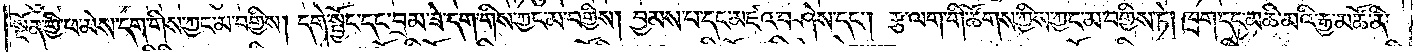སྔོན་གྱི་ཕ་མེས་དག་གིས་ཀྱང་མ་བགྱིས། དགེ་སྦྱོང་དང་བྲམ་ཟེ་དག་གིས་ཀྱང་མ་བགྱིས། བྱམས་པ་དང་མཛའ་བཤེས་དང༌། རྩ་ལག་གི་ཚོགས་ཀྱིས་ཀྱང་མ་བགྱིས་ཏེ། ཁྲག་དང་མཆི་མའི་རྒྱ་མཚོ་ནི་
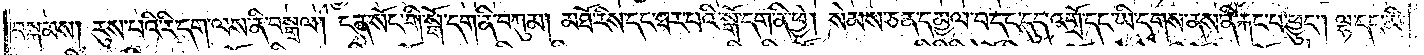བསྐམས། རུས་པའི་རི་དག་ལས་ནི་བསྒྲལ། ངན་སོང་གི་སྒོ་དག་ནི་བཀུམ། མཐོ་རིས་དང་ཐར་པའི་སྒོ་དག་ནི་ཕྱེ། སེམས་ཅན་དམྱལ་བ་དང་དུད་འགྲོ་དང་ཡི་དྭགས་ནས་ནི་རྐང་པ་ཕྱུང༌། ལྷ་དང་མི་
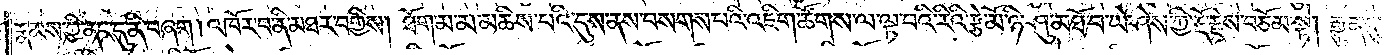རྣམས་ཀྱི་ནང་དུ་ནི་བཞག །འཁོར་བ་ནི་མཐར་བགྱིས། ཐོག་མ་མ་མཆིས་པའི་དུས་ནས་བསགས་པའི་འཇིག་ཚོགས་ལ་ལྟ་བའི་རིའི་རྩེ་མོ་ཉི་ཤུ་མཐོ་བ་ཡེ་ཤེས་ཀྱི་རྡོ་རྗེས་བཅོམ་སྟེ། རྒྱུན་དུ་
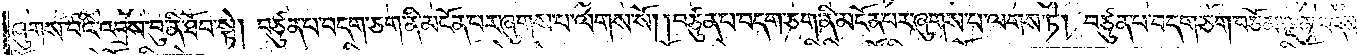ཞུགས་པའི་འབྲས་བུ་ནི་ཐོབ་སྟེ། བཙུན་པ་བདག་ཅག་ནི་མངོན་པར་ཞུགས་པ་ལགས་སོ། །བཙུན་པ་བདག་ཅག་ནི་མངོན་པར་ཞུགས་པ་ལགས་ཏེ། བཙུན་པ་བདག་ཅག་བཅོམ་ལྡན་འདས་
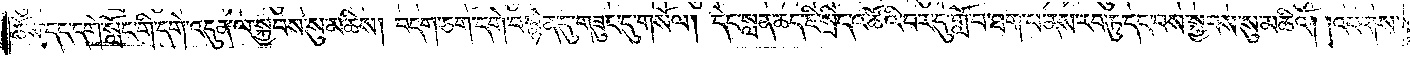ཆོས་དང་དགེ་སློང་གི་དགེ་འདུན་ལ་སྐྱབས་སུ་མཆིས། བདག་ཅག་དགེ་བསྙེན་དུ་གཟུང་དུ་གསོལ། དེང་སླན་ཆད་ཇི་སྲིད་འཚོའི་བར་དུ་གློ་བ་ཐག་པས་ནས་རབ་ཏུ་དང་བས་སྐྱབས་སུ་མཆིའོ། །འཕགས་
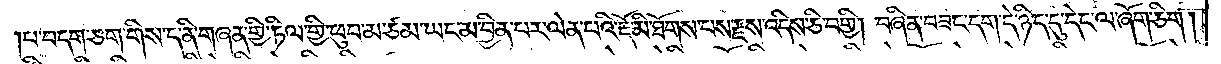པ་བདག་ཅག་གིས་ད་ནི་གཞན་གྱི་ཏིལ་གྱི་ཕུབ་མ་ཙམ་ཡང་མ་བྱིན་པར་ལེན་པའི་རྡོ་མི་ཐོགས་པས་རྫས་འདིས་ཅི་བགྱི། བཞིན་བཟང་དག་དེ་ཉིད་དུ་དེང་ལ་ཞོག་ཅིག །
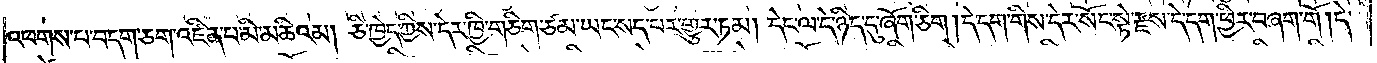འཕགས་པ་བདག་ཅག་འཛིན་པ་མི་མཆིའམ། ཅི་ཁྱེད་ཀྱིས་དེར་ཁྱི་གཅིག་ཙམ་ཡང་སད་པར་གྱུར་ཏམ། དེང་ལ་དེ་ཉིད་དུ་ཞོག་ཅིག །དེ་དག་གིས་དེར་སོང་སྟེ་རྫས་དེ་དག་ཕྱིར་བཞག་གོ །དེ་
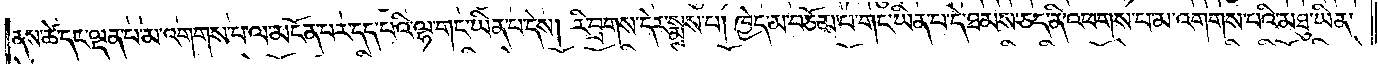ནས་ཚེ་དང་ལྡན་པ་མ་འགགས་པ་ལ་མངོན་པར་དད་པའི་ལྷ་གང་ཡིན་པ་དེས། རི་བྲགས་དེར་སྨྲས་པ། ཁྱེད་མ་བཅོམ་པ་གང་ཡིན་པ་དེ་ཐམས་ཅད་ནི་འཕགས་པ་མ་འགགས་པའི་མཐུ་ཡིན་
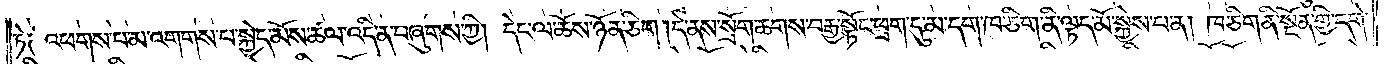ཏེ༑ འཕགས་པ་མ་འགགས་པ་སྐྱེད་མོས་ཚལ་འདི་ན་བཞུགས་ཀྱི། དེང་ལ་ཆོས་ཉོན་ཅིག །དེ་ནས་སྲོག་ཆགས་བརྒྱ་སྟོང་ཕྲག་དུ་མ་དག་ཁ་ཅིག་ནི་ལྟད་མོ་སྐྱེས་པ་ན། ཁ་ཅིག་ནི་སྔོན་གྱི་དགེ་
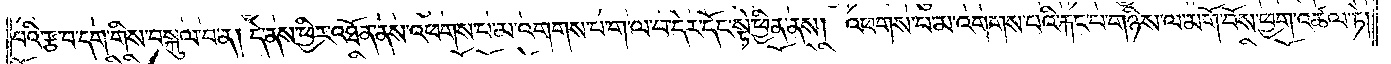བའི་རྩ་བ་དག་གིས་བསྐུལ་བ་ན། དེ་ནས་ཕྱིར་འཐོན་ནས་འཕགས་པ་མ་འགགས་པ་ག་ལ་བ་དེར་དོང་སྟེ་ཕྱིན་ནས། འཕགས་པ་མ་འགགས་པའི་རྐང་པ་གཉིས་ལ་མགོ་བོས་ཕྱག་འཚལ་ཏེ།
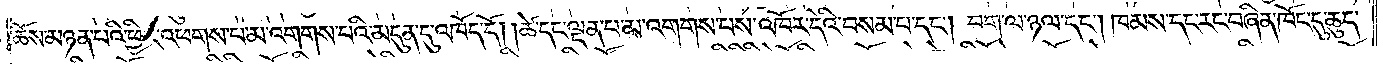ཆོས་མཉན་པའི་ཕྱིར་འཕགས་པ་མ་འགགས་པའི་མདུན་དུ་འཁོད་དོ། །ཚེ་དང་ལྡན་པ་མ་འགགས་པས་འཁོར་དེའི་བསམ་པ་དང༌། བག་ལ་ཉལ་དང༌། ཁམས་དང་རང་བཞིན་ཁོང་དུ་ཆུད་
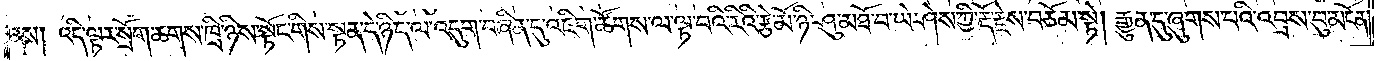ནས། འདི་ལྟར་སྲོག་ཆགས་ཁྲི་ཉིས་སྟོང་གིས་སྟན་དེ་ཉིད་ལ་འདུག་བཞིན་དུ་འཇིག་ཚོགས་ལ་ལྟ་བའི་རིའི་རྩེ་མོ་ཉི་ཤུ་མཐོ་བ་ཡེ་ཤེས་ཀྱི་རྡོ་རྗེས་བཅོམ་སྟེ། རྒྱུན་དུ་ཞུགས་པའི་འབྲས་བུ་མངོན་
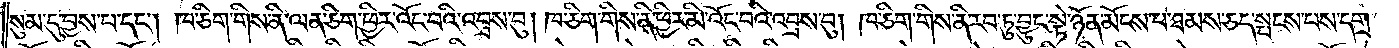སུམ་དུ་བྱས་པ་དང༌། ཁ་ཅིག་གིས་ནི་ལན་ཅིག་ཕྱིར་འོང་བའི་འབྲས་བུ། ཁ་ཅིག་གིས་ནི་ཕྱིར་མི་འོང་བའི་འབྲས་བུ། ཁ་ཅིག་གིས་ནི་རབ་ཏུ་བྱུང་སྟེ་ཉོན་མོངས་པ་ཐམས་ཅད་སྤངས་པས་དགྲ་
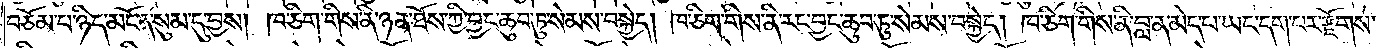བཅོམ་པ་ཉིད་མངོན་སུམ་དུ་བྱས། ཁ་ཅིག་གིས་ནི་ཉན་ཐོས་ཀྱི་བྱང་ཆུབ་ཏུ་སེམས་བསྐྱེད། ཁ་ཅིག་གིས་ནི་རང་བྱང་ཆུབ་ཏུ་སེམས་བསྐྱེད། ཁ་ཅིག་གིས་ནི་བླ་ན་མེད་པ་ཡང་དག་པར་རྫོགས་
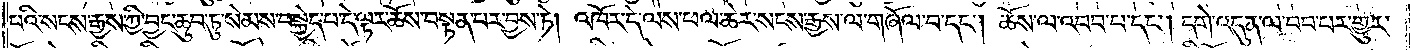པའི་སངས་རྒྱས་ཀྱི་བྱང་ཆུབ་ཏུ་སེམས་བསྐྱེད་པ་དེ་ལྟར་ཆོས་བསྟན་པར་བྱས་ཏེ། འཁོར་དེ་ལས་ཕལ་ཆེར་སངས་རྒྱས་ལ་གཞོལ་བ་དང༌། ཆོས་ལ་འབབ་པ་དང༌། དགེ་འདུན་ལ་བབ་པར་གྱུར་
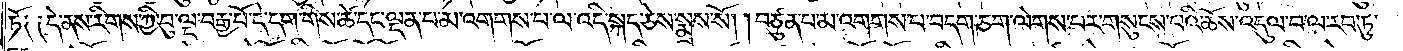ཏོ༑ ༑དེ་ནས་རིགས་ཀྱི་བུ་ལྔ་བརྒྱ་པོ་དེ་དག་གིས་ཚེ་དང་ལྡན་པ་མ་འགགས་པ་ལ་འདི་སྐད་ཅེས་སྨྲས་སོ། །བཙུན་པ་མ་འགགས་པ་བདག་ཅག་ལེགས་པར་གསུངས་པའི་ཆོས་འདུལ་བ་ལ་རབ་ཏུ་
